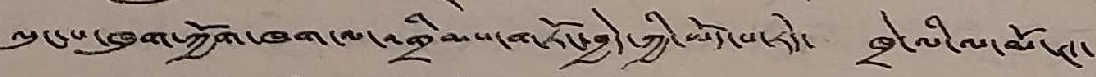ལུང་པ་ཁུག་ཀྱོག་ཁག་ལ་འགྲིམས་གཏོང་བྱེད་ཀྱི་ཡོད་པ་རེད་ ཁྲེ་ལི་ལ་མོ་ཊ་
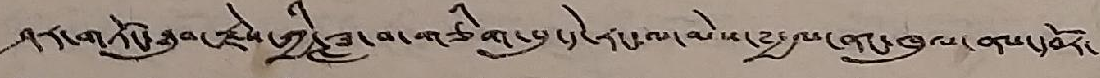ཤར་གཏོང་ཐུབ་རྗེས་ཀྱི་ཟླ་བ་གཅིག་པུ་དེ་རང་ལ་མེས་༸རྒྱལ་ནང་ཁུལ་ནས་དབོར་
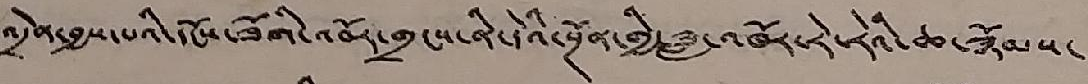འདྲེན་བྱས་པའི་དངོས་ཟོགི་འབོར་གྲངས་ནི་དེའི་སྔོན་གྱི་ཟླ་འཁོར་རེ་རེའི་ཆ་སྙོམས་
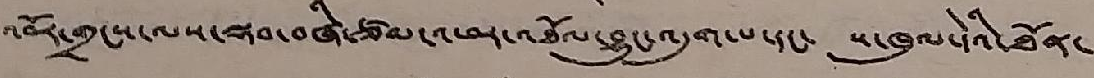འབོར་གྲངས་ལས་ལྡབ་བཞི་ཙམ་འཕར་འཐོལ་བྱུང་འདུག་པ་དང་ ས་ཁུལ་དེའི་ཐོན་
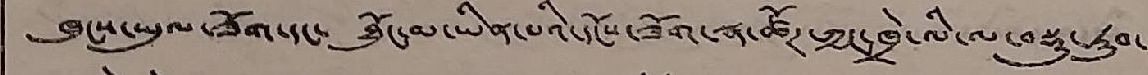ཁུངས་ཡུལ་ཟོག་དང་ ཐོུང་མ་ཡིན་པའི་དངོས་ཟོག་སྣ་ཚོཊ་ཀྱང་ཁྲེ་ལི་ལ་བསྡུ་ཏུབ་
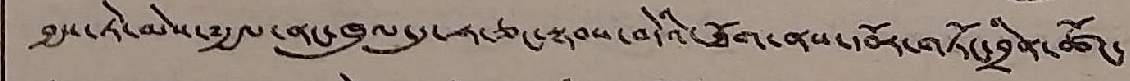བྱས་ཏེ་མེས་༸རྒྱལ་ནང་ཁུལ་དུ་ཧ་ཅང་སྟབས་བདེའི་ཐོག་ནས་དབོར་གཏོང་བྲིན་ཚོང་
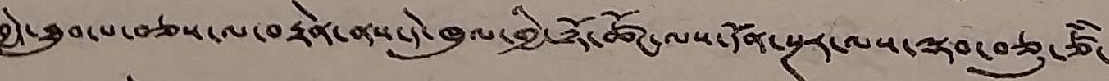བྱེད་ཐུབ་པ་བཅས་ལ་བརྟེན་ནས་དེ་ཁུལ་གྱི་ཉོ་ཚོང་ལས་དོན་སྔར་ལས་ལྡབ་བཅུ་ཙཾ་
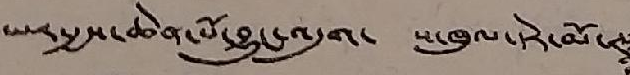ཡར་རྒྱས་ཆེན་པོ་བྱུང་འདུག་ ས་ཁུལ་དེར་མོ་ཊ
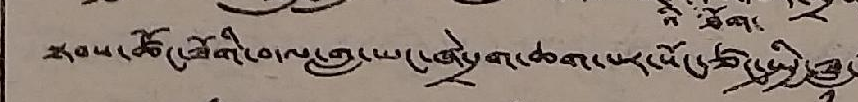སྟབས་ཚོང་ཟོགི་བ་ལ་གླ་ཡང་ཞེ་དྲག་ཆགས་པར་སོང་ཙང་སྤྱི་ཟླ་
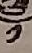༡
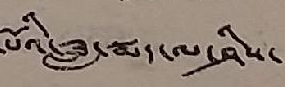པོའི་ཟླ་སྨད་ལ་ཤིས་
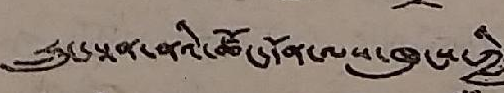ཧྲུང་པཱན་ནའི་ཚོང་དོན་ལས་ཁུངས་ཀྱི
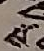ས
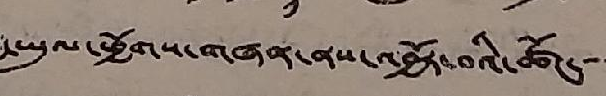་ཡུལ་ཕྱོགས་གཞན་ནས་འབྱོར་བའི་ཚོང་་་
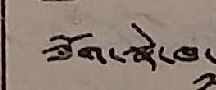ཟོག་སྣེ་ཁ་
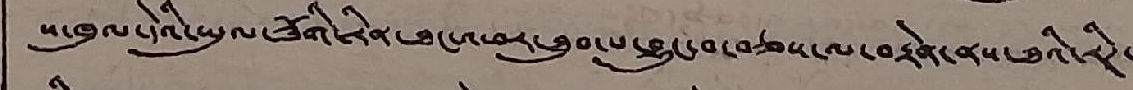ས་ཁུལ་དེའི་ཡུལ་ཟོགི་རིན་ཐང་འཕར་ཐུབ་པ་བྱུང་བ་བཅས་ལ་བརྟེན་ནས་ཐའི་རིཊ་
